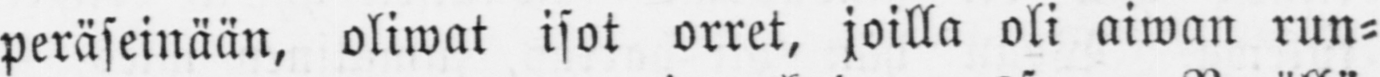peräseinään, oliwat isot orret, joilla oli aiwan run-
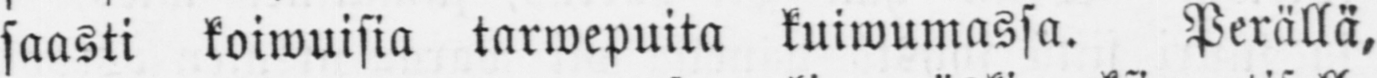saasti koiwuisia tarwepuita kuiwumassa. Perällä,
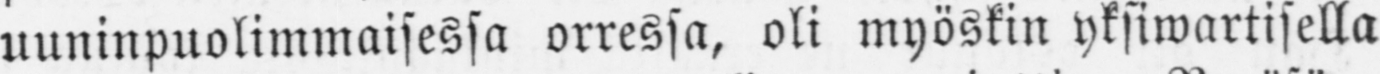uuninpuolimmaisessa orressa, oli myöskin yksiwartisella
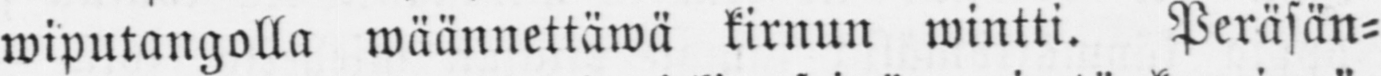wiputangolla wäännettäwä kirnun wintti. Peräsän-
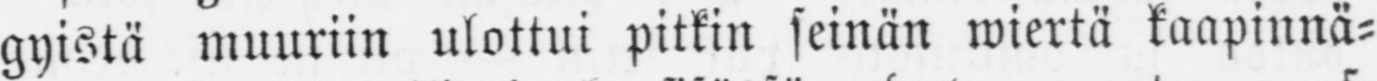gyistä muuriin ulottui pitkin seinän wiertä kaapinnä-
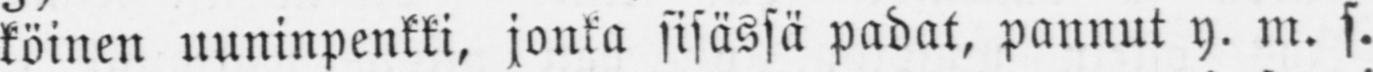köinen uuninpenkki, jonka sisässä padat, pannut y. m. s.
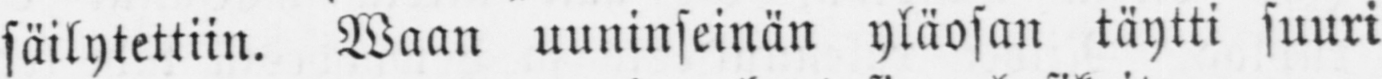säilytettiin. Waan uuninseinän yläosan täytti suuri
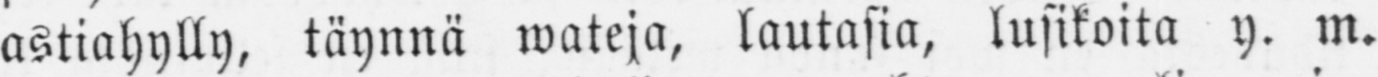astiahylly, täynnä wateja, lautasia, lusikoita y. m.
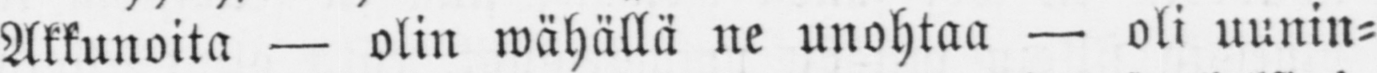Akkunoita — olin wähällä ne unohtaa — oli uunin-
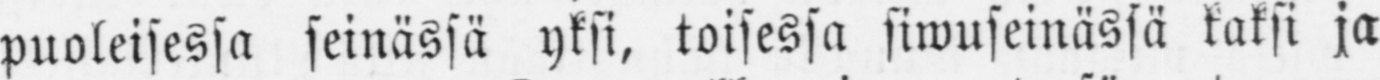puoleisessa seinässä yksi, toisessa siwuseinässä kaksi ja
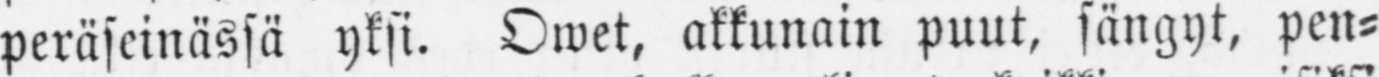peräseinässä yksi. Owet, akkunain puut, sängyt, pen-
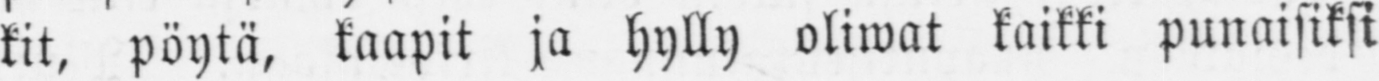kit, pöytä, kaapit ja hylly oliwat kaikki punaisiksi
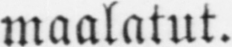maalatut.
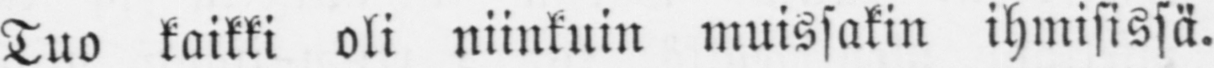Tuo kaikki oli niinkuin muissakin ihmisissä.
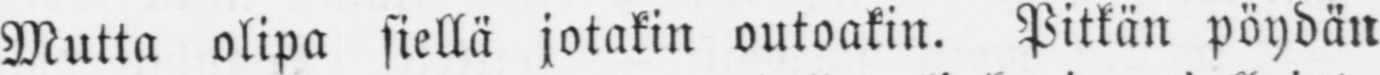Mutta olipa siellä jotakin outoakin. Pitkän pöydän
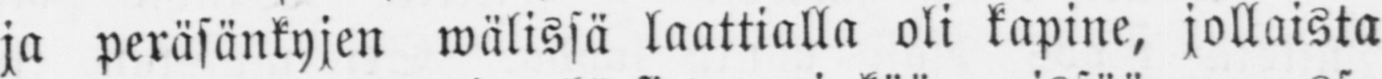ja peräsänkyjen wälissä laattialla oli kapine, jollaista
